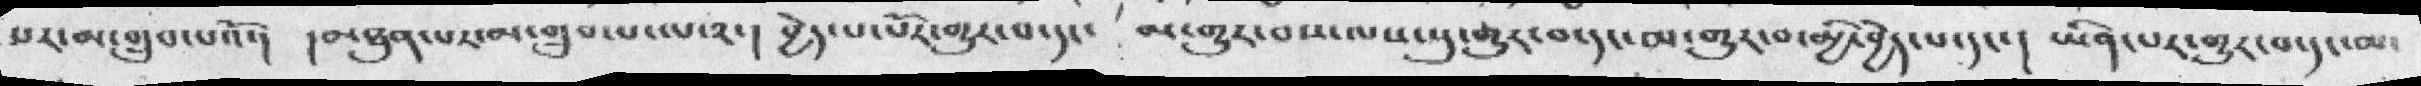པར་མ་གྲུབ་པའོ་།  །མཐུན་པར་མ་གྲུབ་པ་ལ༢་། བྱེད་པ་པོར་གྱུར་བ་དང་  མ་གྱུར་བས་ལས་སུ་གྱུར་བ་དང་མ་གྱུར་བ་མྱི་བྱེད་པ་དང་། ཡིན་པར་གྱུར་བ་དང་མ་
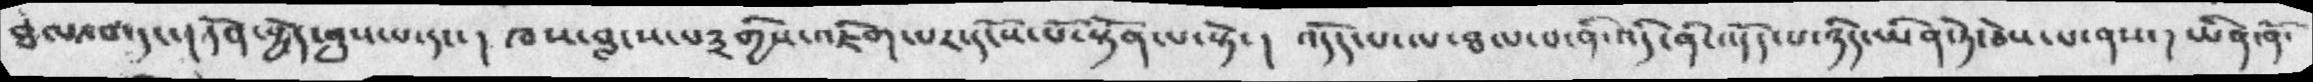ཐལ་བ་དང་། དོན་བྱེད་ནུས་པ་དང་། ཁས་བླངས་པ༣གྱིས་འཇིག་པར་དངོས་པོ་སྟོན་པ་སྟེ་།  འདོད་པ་ལ་ཐལ་བ་ནི་འདི་ནི་འདོད་པ་ཉིད་ཡིན་ཏེ་ཅེས་པ་ནས་། ཡིན་ནོ་
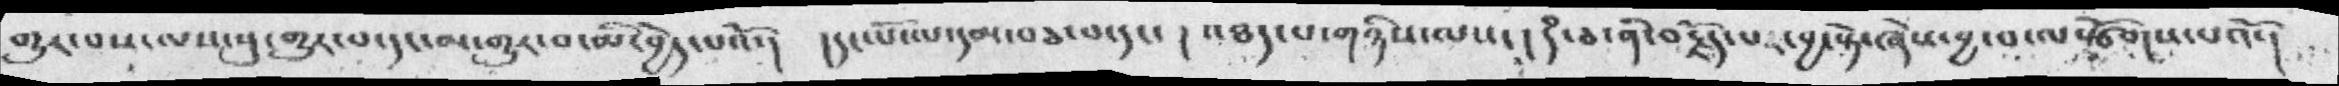གྱུར་བས་ལས་སུ་གྱུར་པ་དང་མ་གྱུར་བ་མི་བྱེད་པའོ་།  །དང་པོ་ལ་དམ་བཅ་བ་དང་། འཐད་པ་གཉིས་ལས་། དཾ་ཅ་ནི་བརྗོད་པར་བྱ་སྟེ་ཞེས་བྱ་བ་ལསྩོགས་པའོ་།
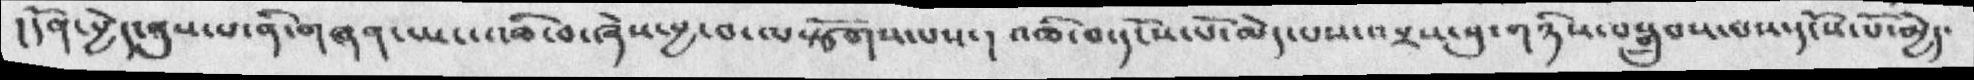།དོན་བྱེད་ནུས་པ་ནི་གཞན་ཡང་འཆི་བ་ཞེས་བྱ་བ་ལསྩོགས་པས་།  འཆི་བ་དངོས་པོ་མེད་པས་འབྲས་བུ་གཉིས་བསྒྲུབས་པས་དངོས་པོ་མྱེད་
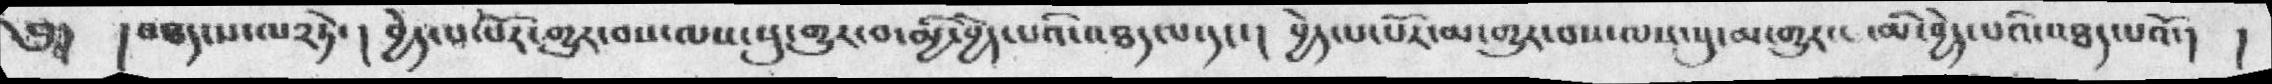༅། །འཐད་པ་ལ༢ཏེ་།  བྱེད་པ་པོར་གྱུར་བས་ལས་སུ་གྱུར་བ་མྱི་བྱེད་པའི་འཐད་པ་དང་།  བྱེད་པ་པོར་མ་གྱུར་བས་ལས་སུ་མ་གྱུར་བ་མི་བྱེད་པའི་འཐད་པའོ་། །
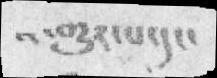་གྱུར་པ་དང་
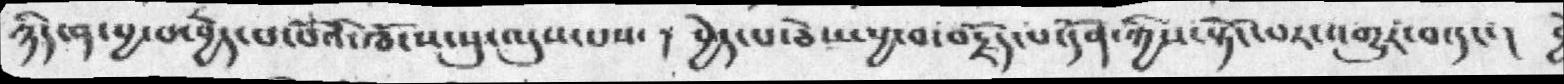ཉིད་ན་བྱ་བ་བྱེད་པ་པོའི་ཁོངས་སུ་འདུས་པས་། བྱེད་པ་ཅེས་བྱ་བ་བརྗོད་པ་དོན་ཀྱིས་སྟོང་པར་འགྱུར་བ་དང་།
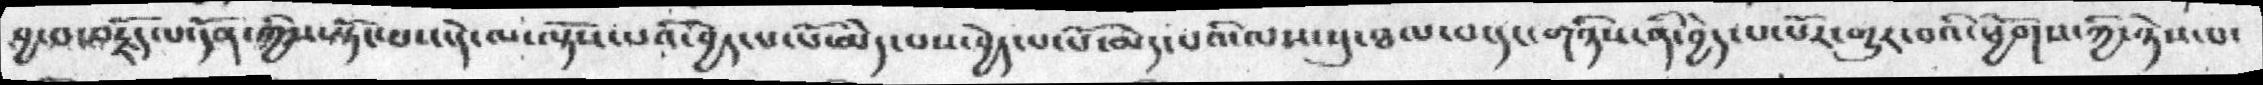བྱ་བ་བརྗོད་པ་དོན་ཀྱིས་སྟོང་པས་དེ་ལ་ལྟོས་པའི་བྱེད་པ་པོ་མེད་པས་བྱེད་པ་པོ་མེད་པའི་ལས་སུ་ཐལ་བ་དང་གཉིས་ནི་བྱེད་པ་པོར་གྱུར་བའི་ཕྱོགས་ཀྱི་ཉེས་པ་
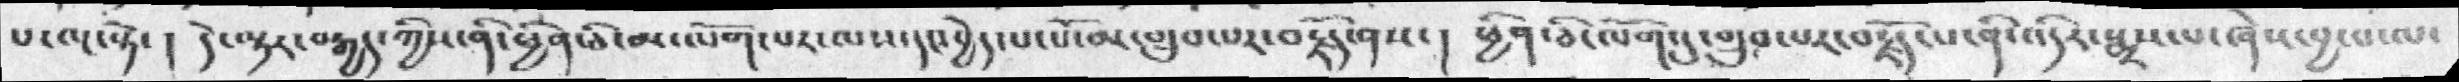པ་ལྔ་སྟེ་། དེ་ལྟར་བརྒྱད་ཀྱིས་ནི་ཕྱིན་ཅི་མ་ལོག་པར་ལས་དང་བྱེད་པ་པོ་མ་གྲུབ་པར་བརྗོད་ནས་། ཕྱིན་ཅི་ལོག་དུ་གྲུབ་པར་བརྗོད་པ་ནི་འདིར་སྨྲས་པ་ཞེས་བྱ་བ་ལ་
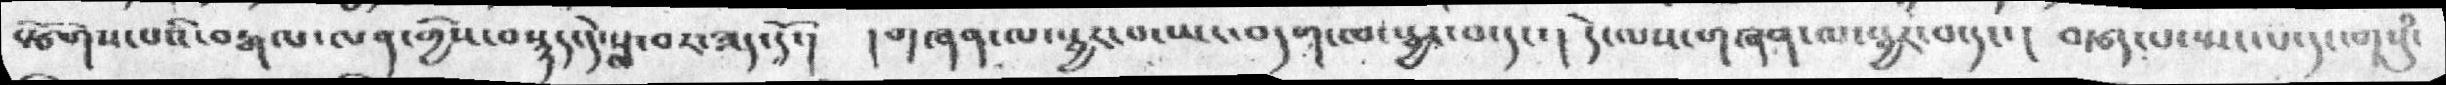སྩོགས་པའི་བརྒལ་ལན་གྱིས་བསྙད་དེ་སླ་བར་ཟད་དོ་།  །གཞན་ལ་སྦྱར་བ་ཡང་བདག་ལ་སྦྱར་བ་དང་། དེ་ལས་གཞན་ལ་སྦྱར་བ་དང་། བརྩད་པ་སྤང་པ་དང་གསུཾ་
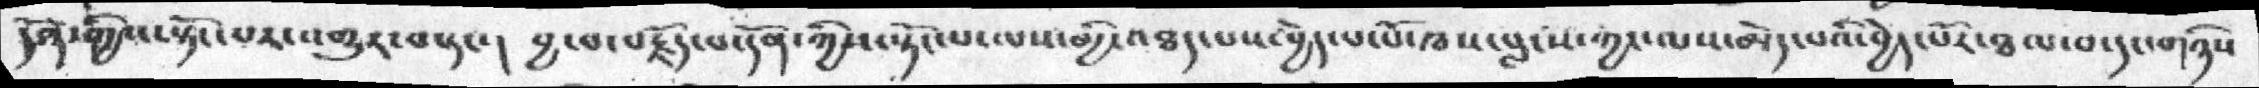དོན་གྱིས་སྟོང་པར་འགྱུར་བ་དང་།  བྱ་བ་བརྗོད་པ་དོན་ཀྱིས་སྟོང་པ་ལས་མྱི་འཐད་པས་བྱེད་པ་པོ་ཁས་བླངས་ཀྱང་ལས་མེད་པའི་བྱེད་པོར་ཐལ་བ་དང་གཉིས
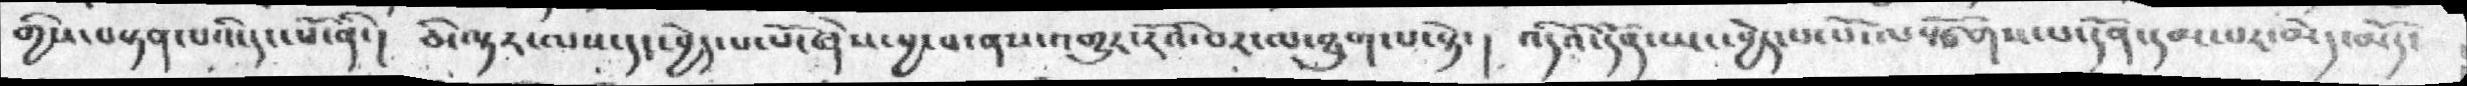གྱིས་བསྟན་པའི་དང་པོ་ནི་།  ཅི་ལྟར་ལས་དང་བྱེད་པ་པོ་ཞེས་བྱ་བ་ནས་འགྱུར་རོའི་བར་ལ་ཐུག་པ་སྟེ་། འདིའི་དོན་ཡང་བྱེད་པ་པོ་ལསྩོགས་པ་དོན་དམ་པར་མེད་མོད་
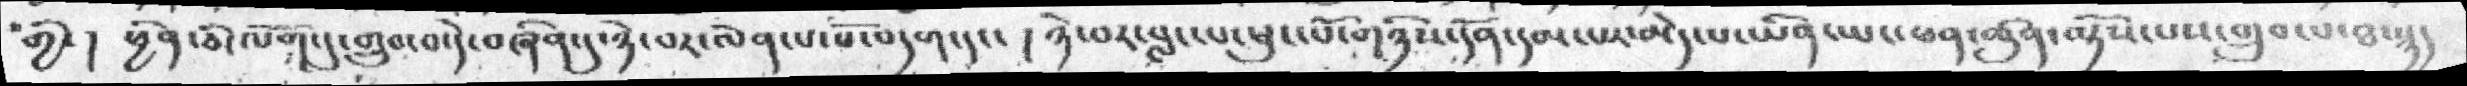གྱི་། ཕྱིན་ཅི་ལོག་དུ་གྲུབ་བ་དེ་བཞིན་དུ་ཉེ་བར་ལེན་པ་པོ་བདག་དང་།  ཉེ་བར་བླང་པ་ཕུང་པོ་གཉིས་དོན་དམ་པར་མེད་པ་ཡིན་ཡང་ཕན་ཚུན་ལྟོས་པས་གྲུབ་པ་ཐ་སྙད
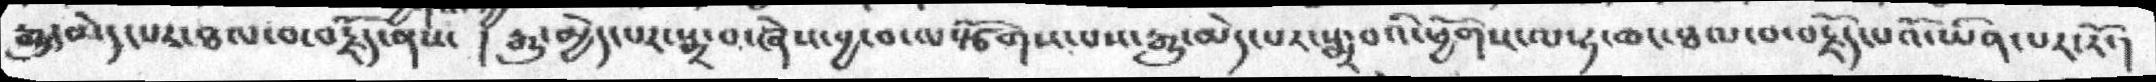རྒྱུ་མེད་པར་ཐལ་བ་བརྗོད་ནས་ ། རྒྱུ་མྱེད་པར་སྨྲ་བ་ཞེས་བྱ་བ་ལསྩོགས་པས་རྒྱུ་མེད་པར་སྨྲ་བའི་ཕྱོགས་ལ་ཧ་ཆངཐལ་བ་བརྗོད་པའོ་ཡིན་པར་རོ་།
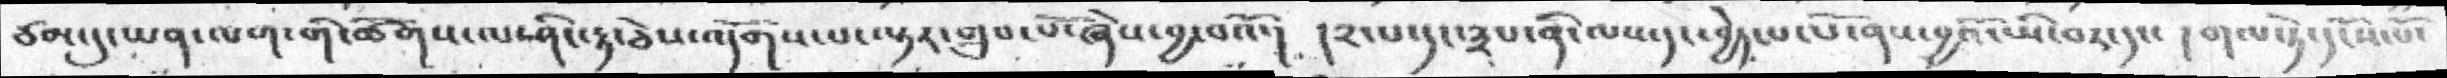ཙམ་དུ་ཡན་ལག་གི་ཚོགས་ལ་ཤཱིང་རྟ་ཅེས་འདོགས་པ་ལྟར་གྲུབ་པོ་ཞེས་བྱ་བའོ་།  །༢་པ་དང་༣པ་ནི་ལས་དང་བྱེད་པ་པོ་ནས་བྱའོ་ཡི་བར་དང་། གལ་ཏེ་དངོས་པོ་
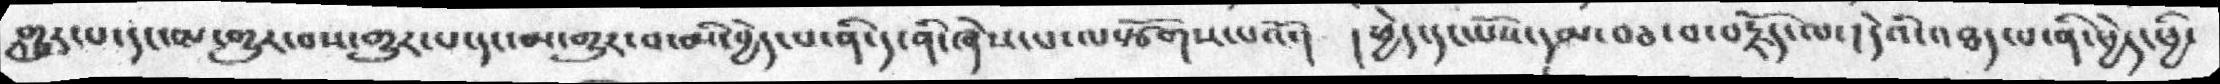གྱུར་པ་དང་མ་གྱུར་བས་གྱུར་པ་དང་མ་གྱུར་བ་མི་བྱེད་པ་ནི་ད་ནི་ཞེས་པ་ལསྩོགས་པའོ་། །ཕྱེད་དང་པོས་དམ་བཅ་བ་བརྗོད་ལ་། དེའི་འཏད་པ་ནི་ཕྱེད་ཕྱི་
